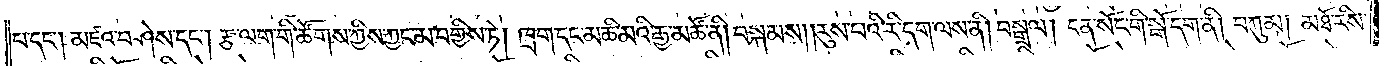པ་དང༌། མཛའ་བཤེས་དང༌། རྩ་ལག་གི་ཚོགས་ཀྱིས་ཀྱང་མ་བགྱིས་ཏེ། ཁྲག་དང་མཆི་མའི་རྒྱ་མཚོ་ནི། བསྐམས། རུས་པའི་རི་དག་ལས་ནི། བསྒྲལ། ངན་སོང་གི་སྒོ་དག་ནི། བཀུམ། མཐོ་རིས་
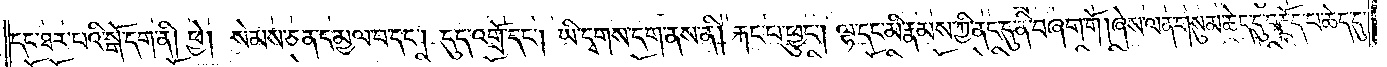དང་ཐར་པའི་སྒོ་དག་ནི། ཕྱེ། སེམས་ཅན་དམྱལ་བ་དང༌། དུད་འགྲོ་དང༌། ཡི་དྭགས་དག་ནས་ནི། རྐང་པ་ཕྱུང༌། ལྷ་དང་མི་རྣམས་ཀྱི་ནང་དུ་ནི་བཞག་གོ །ཞེས་ལན་གསུམ་ཆེད་དུ་བརྗོད་པ་ཆེད་དུ་
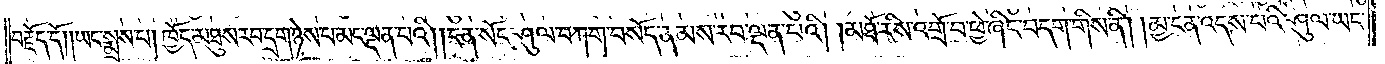བརྗོད་དོ། །ཡང་སྨྲས་པ། ཁྱོད་མཐུས་རབ་དྲག་ཉེས་པ་མང་ལྡན་པའི། །ངན་སོང་ཤུལ་བཀག་བསོད་ནམས་རབ་ལྡན་པའི། །མཐོ་རིས་འགྲོ་བ་ཕྱེ་ཞིང་བདག་གིས་ནི། །མྱ་ངན་འདས་པའི་ཤུལ་ཡང་
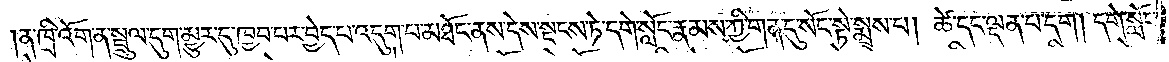།ན་ཁྲི་འོག་ན་སྦྲུལ་དུག་མྱུར་དུ་ཁྱབ་པར་བྱེད་པ་འདུག་པ་མཐོང་ནས་དེས་སྡངས་ཏེ་དགེ་སློང་རྣམས་ཀྱི་གན་དུ་སོང་སྟེ་སྨྲས་པ། ཚེ་དང་ལྡན་པ་དག །དགེ་སློང་
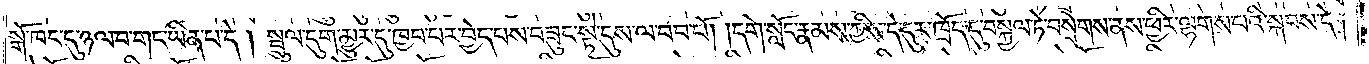སྒོ་ཁང་དུ་ཉལ་པ་གང་ཡིན་པ་དེ། སྦྲུལ་དུག་མྱུར་དུ་ཁྱབ་པར་བྱེད་པས་བཟུང་སྟེ་དུས་ལ་བབ་པོ། །དགེ་སློང་རྣམས་ཀྱིས་དེ་དུར་ཁྲོད་དུ་བསྐྱལ་ཏེ་བསྲེགས་ནས་ཕྱིར་ལྷགས་པའི་སྐབས་དེ།
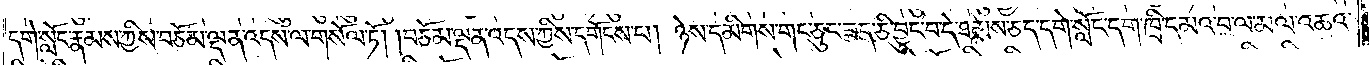དགེ་སློང་རྣམས་ཀྱིས་བཅོམ་ལྡན་འདས་ལ་གསོལ་ཏོ། །བཅོམ་ལྡན་འདས་ཀྱིས་དགོངས་པ། ཉེས་དམིགས་གང་ཅུང་ཟད་ཅི་བྱུང་བ་དེ་ཐམས་ཅད་དགེ་སློང་དག་ཁྲི་དམའ་བ་ལ་མལ་འཆའ་
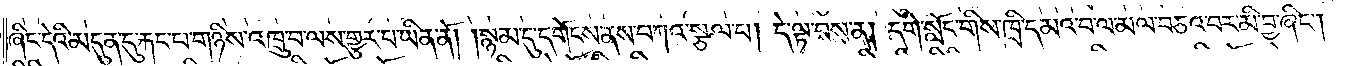ཞིང་དེའི་མདུན་དུ་རྐང་པ་གཉིས་འཁྲུ་བ་ལས་གྱུར་པ་ཡིན་ནོ། །སྙམ་དུ་དགོངས་ནས་བཀའ་སྩལ་པ། དེ་ལྟ་བས་ན། དགེ་སློང་གིས་ཁྲི་དམའ་བ་ལ་མལ་བཅའ་བར་མི་བྱ་ཞིང༌།
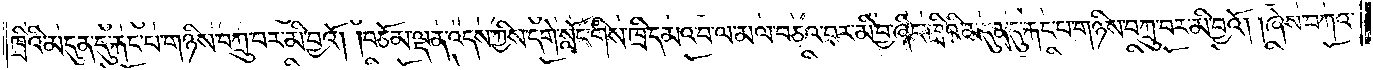ཁྲིའི་མདུན་དུ་རྐང་པ་གཉིས་བཀྲུ་བར་མི་བྱའོ། །བཅོམ་ལྡན་འདས་ཀྱིས་དགེ་སློང་གིས་ཁྲི་དམའ་བ་ལ་མལ་བཅའ་བར་མི་བྱ་ཞིང་ཁྲིའི་མདུན་དུ་རྐང་པ་གཉིས་བཀྲུ་བར་མི་བྱའོ། །ཞེས་བཀའ་
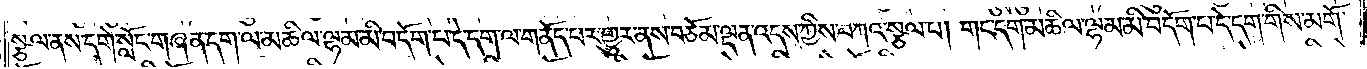སྩལ་ནས་དགེ་སློང་གཞན་དག་ལ་མཆིལ་ལྷམ་མི་བདོག་པ་དེ་དག་ལ་གནོད་པར་གྱུར་ནས་བཅོམ་ལྡན་འདས་ཀྱིས་བཀའ་སྩལ་པ། གང་དག་མཆིལ་ལྷམ་མི་བདོག་པ་དེ་དག་གིས་མགོ་
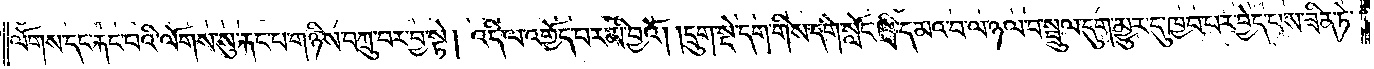ལོགས་དང་རྐང་པའི་ལོགས་སུ་རྐང་པ་གཉིས་བཀྲུ་བར་བྱ་སྟེ། འདི་ལ་འགྱོད་པར་མི་བྱའོ། །དྲུག་སྡེ་དག་གིས་དགེ་སློང་ཁྲི་དམའ་བ་ལ་ཉལ་བ་སྦྲུལ་དུག་མྱུར་དུ་ཁྱབ་པར་བྱེད་པས་ཟིན་ཏེ་
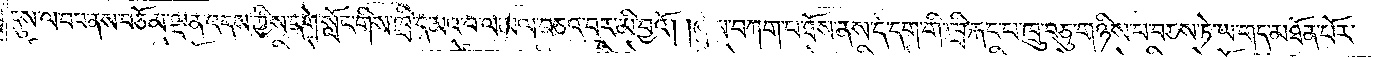དུས་ལ་བབ་ནས་བཅོམ་ལྡན་འདས་ཀྱིས་དགེ་སློང་གིས་ཁྲི་དམའ་བ་ལ་མལ་བཅའ་བར་མི་བྱའོ། །ཞེས་བཀག་པ་ཐོས་ནས་དེ་དག་གིས་ཁྲི་རྐང་པ་ཁྲུ་བཅུ་གཉིས་པ་བཅས་ཏེ་ཡ་གད་མཐོན་པོར་
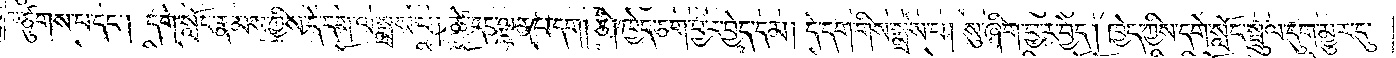བཙུགས་པ་དང༌། དགེ་སློང་རྣམས་ཀྱིས་དེ་དག་ལ་སྨྲས་པ། ཚེ་དང་ལྡན་པ་དག །ཅི། ཁྱེད་ཅག་བྱ་ར་བྱེད་དམ། དེ་དག་གིས་སྨྲས་པ། སུ་ཞིག་བྱ་ར་བྱེད། ཁྱེད་ཀྱིས་དགེ་སློང་སྦྲུལ་དུག་མྱུར་དུ་
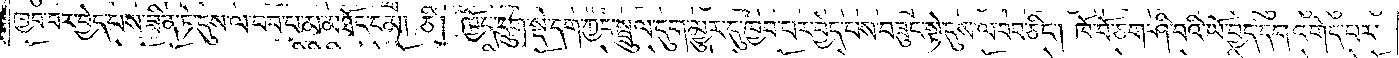ཁྱབ་བར་བྱེད་པས་ཟིན་ཏེ་དུས་ལ་བབ་པ་མ་མཐོང་ངམ། ཅི། ཁྱོད་དྲུག་སྡེ་དག་ཀྱང་སྦྲུལ་དུག་མྱུར་དུ་ཁྱབ་པར་བྱེད་པས་བཟུང་སྟེ་དུས་ལ་བབ་ཅིང༌། ཁོ་བོ་ཅག་ཤི་བའི་ཡོ་བྱད་དག་འགེད་པར་
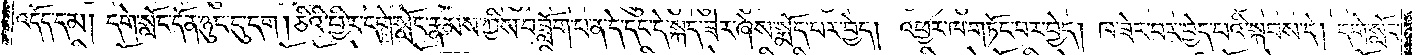འདོད་དམ། དགེ་སློང་དོན་ཉུང་ངུ་དག །ཅིའི་ཕྱིར་དགེ་སློང་རྣམས་ཀྱིས་བཟློག་པ་ན་དེ་དང་དེ་སྐད་ཟེར་ཞེས་སྨོད་པར་བྱེད། འཕྱར་ཁ་གཏོང་བར་བྱེད། ཁ་ཟེར་བར་བྱེད་པའི་སྐབས་དེ། དགེ་སློང་
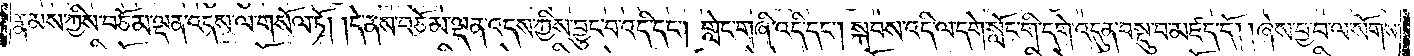རྣམས་ཀྱིས་བཅོམ་ལྡན་འདས་ལ་གསོལ་ཏོ། །དེ་ནས་བཅོམ་ལྡན་འདས་ཀྱིས་བྱུང་བ་འདི་དང༌། གླེང་གཞི་འདི་དང༌། སྐབས་འདི་ལ་དགེ་སློང་གི་དགེ་འདུན་བསྡུ་བ་མཛད་དོ། །ཞེས་བྱ་བ་ལ་སོགས་
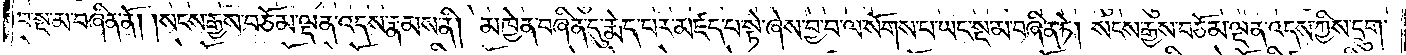བ་སྔ་མ་བཞིན་ནོ། །སངས་རྒྱས་བཅོམ་ལྡན་འདས་རྣམས་ནི། མཁྱེན་བཞིན་དུ་རྨེད་པར་མཛད་པ་སྟེ་ཞེས་བྱ་བ་ལ་སོགས་པ་ཡང་སྔ་མ་བཞིན་ཏེ། སངས་རྒྱས་བཅོམ་ལྡན་འདས་ཀྱིས་དྲུག་
